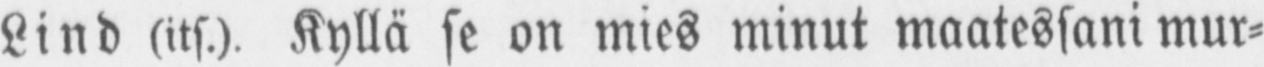Lind (its.). Kyllä se on mies minut maatessani mur-
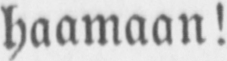haamaan!
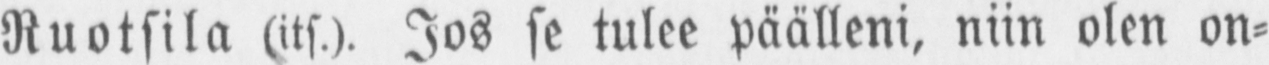Ruotsila (its.). Jos se tulee päälleni, niin olen on-
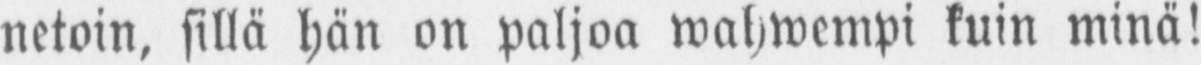netoin, sillä hän on paljoa wahwempi kuin minä!
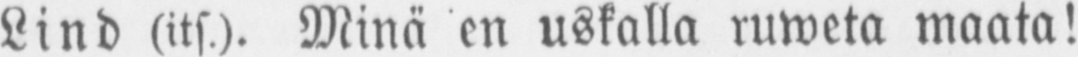Lind (its). Minä en uskalla rumeta maata!
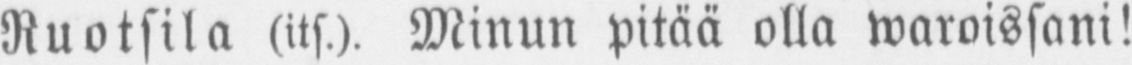Ruotsiin (its.). Minun pitää olla waroissani!
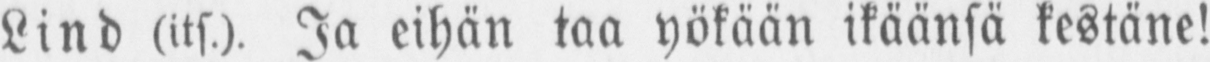Lind (its.). Ja eihän taa yökään ikäänsä kestäne!
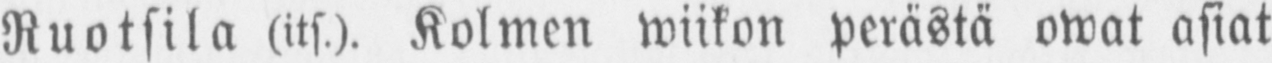Ruotsila (its). Kolmen wiikon perästä owat asiat
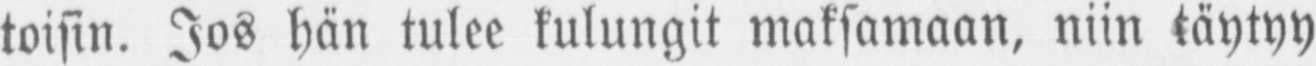toisin. Jos hän tulee kulungit maksamaan, niin täytyy
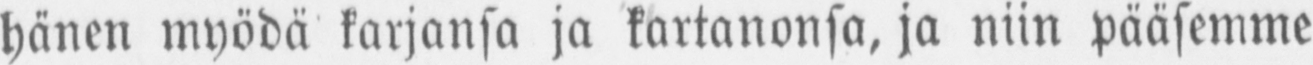hänen myödä karjansa ja kartanonsa, ja niin pääsemme
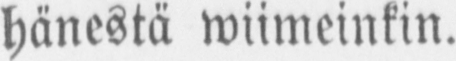hänestä wiimeinkin.
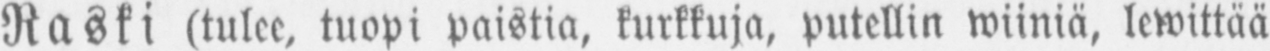Raski (tulee, tuopi paistia, kurkkuja, putellin wiiniä, lewittää
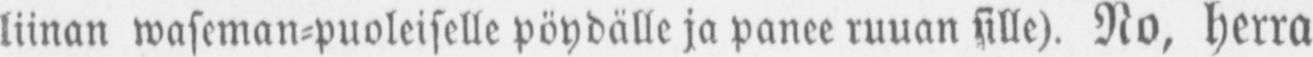liinan waseman-puoleiselle pöydälle ja panee ruuan sille). No, herra
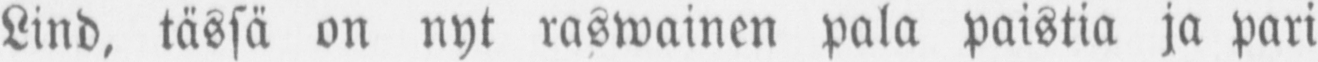Lind, tässä on nyt raswainen pala paistia ja pari
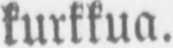kurkkua.
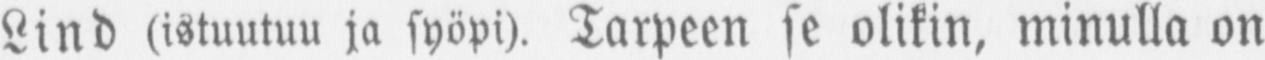Lind (istuutuu ja syöpi). Tarpeen se olikin, minulla on
